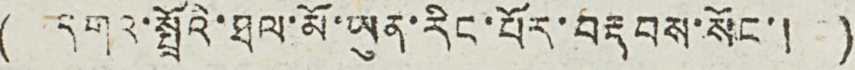( དགའ་སྤྲོའི་ཐལ་མོ་ཡུན་རིང་པོར་བརྡབས་སོང་། )
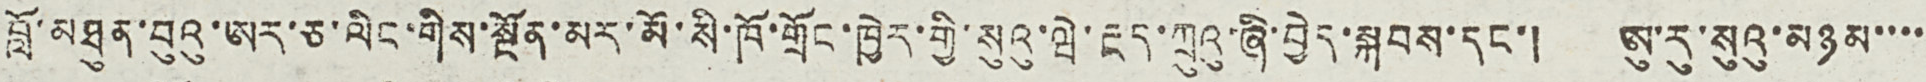བློ་མཐུན་བུའུ་ཨར་ཅ་ལིང་གིས་སྔོན་མར་མོ་སི་ཁོ་གྲོང་ཁྱེར་གྱི་སུའུ་ཝེ་རྔད་ཀྲུའུ་ཞི་བྱེད་སྐབས་དང་། ཨུ་རུ་སུའུ་མཉམ་་་་
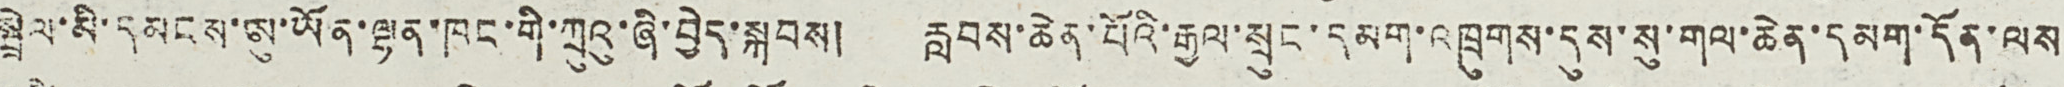སྦྲེལ་མི་དམངས་ཨུ་ཡོན་ལྷན་ཁང་གི་ཀྲུའུ་ཞི་བྱེད་སྐབས། རླབས་ཆེན་པོའི་རྒྱལ་སྲུང་དམག་འཁྲུགས་དུས་སུ་གལ་ཆེན་དམག་དོན་ལས
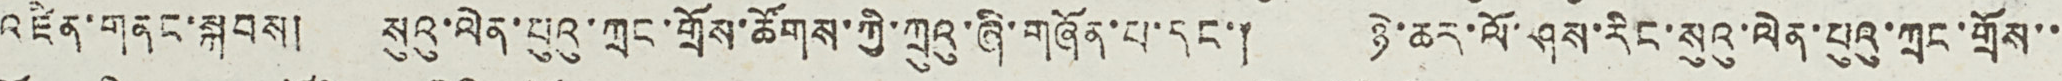འཛིན་གནང་སྐབས། སུའུ་ལེན་པུའུ་ཀྲང་གྲོས་ཚོགས་ཀྱི་ཀྲུའུ་ཞི་གཞོན་པ་དང་། ཉེར་ཆར་ལོ་ཤས་རིང་སུའུ་ལེན་པུའུ་ཀྲང་གྲོས་་
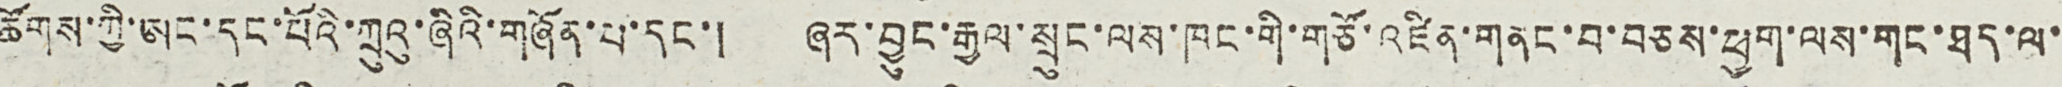ཚོགས་ཀྱི་ཨང་དང་པོའི་ཀྲུའུ་ཞིའི་གཞོན་པ་དང་། ཞེར་བྱུང་རྒྱལ་སྲུང་ལས་ཁང་གི་གཙོ་འཛིན་གནང་བ་བཅས་ཕྱག་ལས་གང་ཐད་ལ་
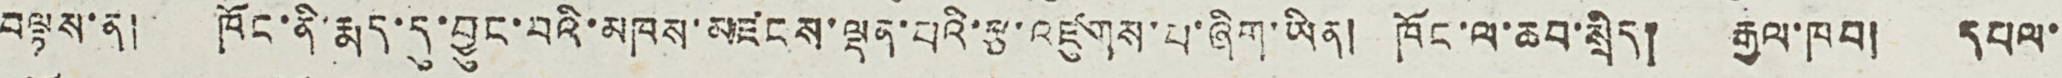བལྟས་ན། ཁོང་ནི་རྨད་དུ་བྱུང་བའི་མཁས་མཛངས་ལྡན་པའི་རྩ་འཛུགས་པ་ཞིག་ཡིན། ཁོང་ལ་ཆབ་སྲིད། རྒྱལ་ཁབ། དཔལ་
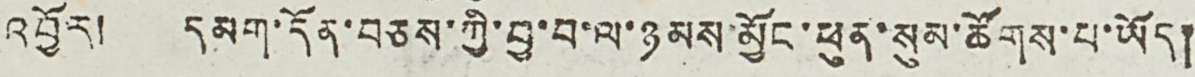འབྱོར། དམག་དོན་བཅས་ཀྱི་བྱ་བ་ལ་ཉམས་མྱོང་ཕུན་སུམ་ཚོགས་པ་ཡོད།
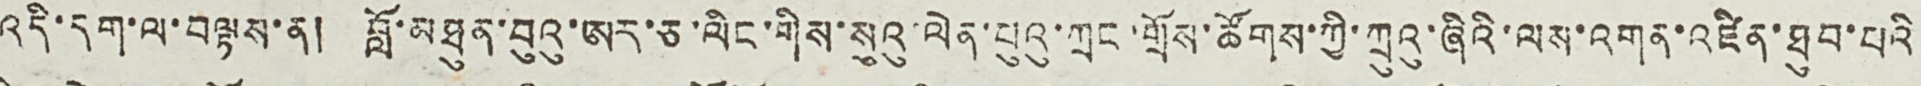འདི་དག་ལ་བལྟས་ན། བློ་མཐུན་བུའུ་ཨར་ཅ་ལིང་གིས་སུའུ་ལེན་པུའུ་ཀྲང་གྲོས་ཚོགས་ཀྱི་ཀྲུའུ་ཞིའི་ལས་འགན་འཛིན་ཐུབ་པའི
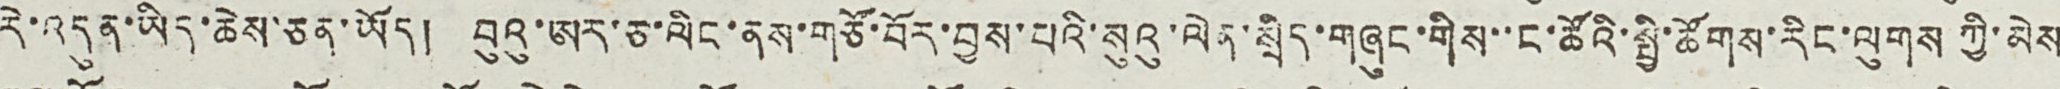རེ་འདུན་ཡིད་ཆེས་ཅན་ཡོད། བུའུ་ཨར་ཅ་ལིང་ནས་གཙོ་བོར་བྱས་པའི་སུའུ་ལེན་སྲིད་གཞུང་གིས་་ང་ཚོའི་སྤྱི་ཚོགས་རིང་ལུགས ཀྱི་མེས
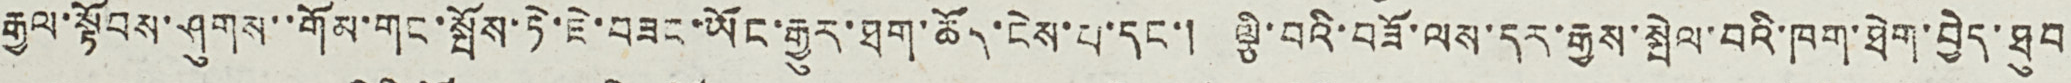རྒྱལ་སྟོབས་ཤུགས་་གོམ་གང་སྤོས་ཏེ་ཇེ་བཟང་ཡོང་རྒྱུར་ཐག་ཆོད་ངེས་པ་དང་། ལྕི་བའི་བཟོ་ལས་དར་རྒྱས་སྤེལ་བའི་ཁག་ཐེག་བྱེད་ཐུབ
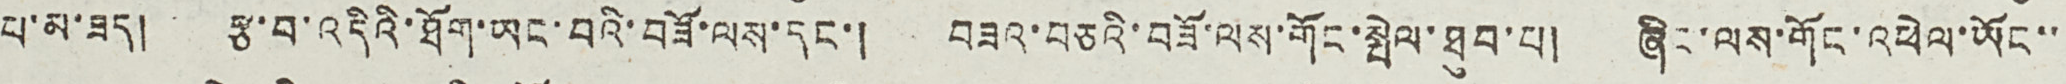པ་མ་ཟད། རྩ་བ་འདིའི་ཐོག་ཡང་བའི་བཟོ་ལས་དང་། བཟའ་བཅའི་བཟོ་ལས་གོང་སྤེལ་ཐུབ་པ། ཞིང་ལས་གོང་འཕེལ་ཡོང་་
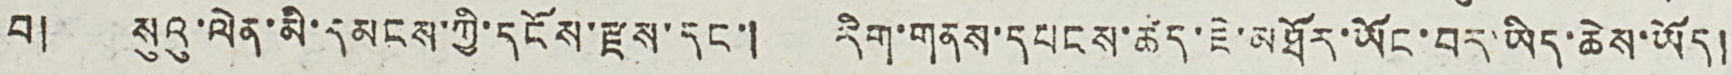བ། སུའུ་ལེན་མི་དམངས་ཀྱི་དངོས་རྫས་དང་། རིག་གནས་དཔངས་ཚད་ཇེ་མཐོར་ཡོང་བར་ཡིད་ཆེས་ཡོད།
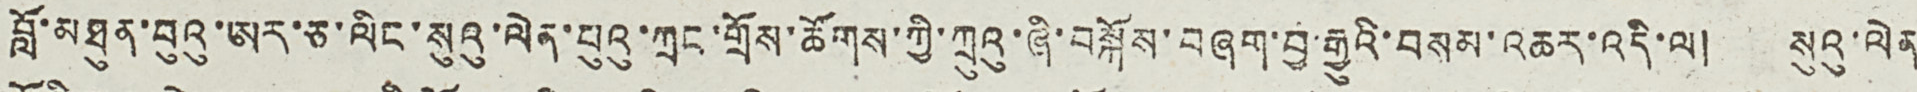བློ་མཐུན་བུའུ་ཨར་ཅ་ལིང་སུའུ་ལེན་པུའུ་ཀྲང་གྲོས་ཚོགས་ཀྱི་ཀྲུའུ་ཞི་བསྐོས་བཞག་བྱ་རྒྱུའི་བསམ་འཆར་འདི་ལ། སུའུ་ལེན
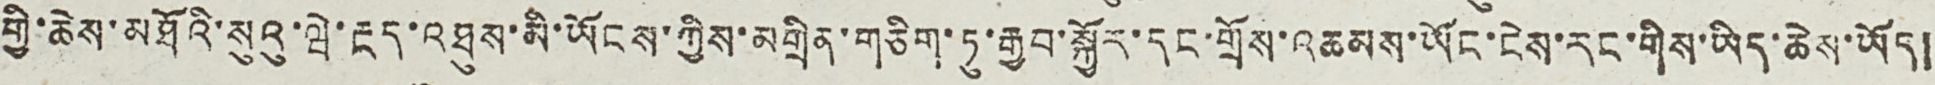གྱི་ཆེས་མཐོའི་སུའུ་ཝེ་རྔད་འཐུས་མི་ཡོངས་ཀྱིས་མགྲིན་གཅིག་ཏུ་རྒྱབ་སྐྱོར་དང་གྲོས་འཆམས་ཡོང་ངེས་རང་གིས་ཡིད་ཆེས་ཡོད།
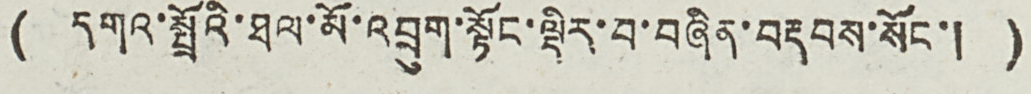( དགའ་སྤྲོའི་ཐལ་མོ་འབྲུག་སྟོང་ལྡིར་བ་བཞིན་བརྡབས་སོང་། )
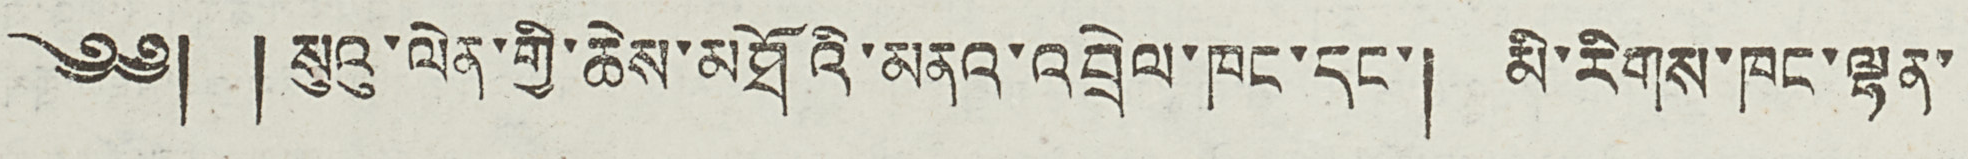༄༅། །སུའུ་ལེན་གྱི་ཆས་མཐོའི་མནའ་འབྲེལ་ཁང་དང་། མི་རིགས་ཁང་ལྷན་
